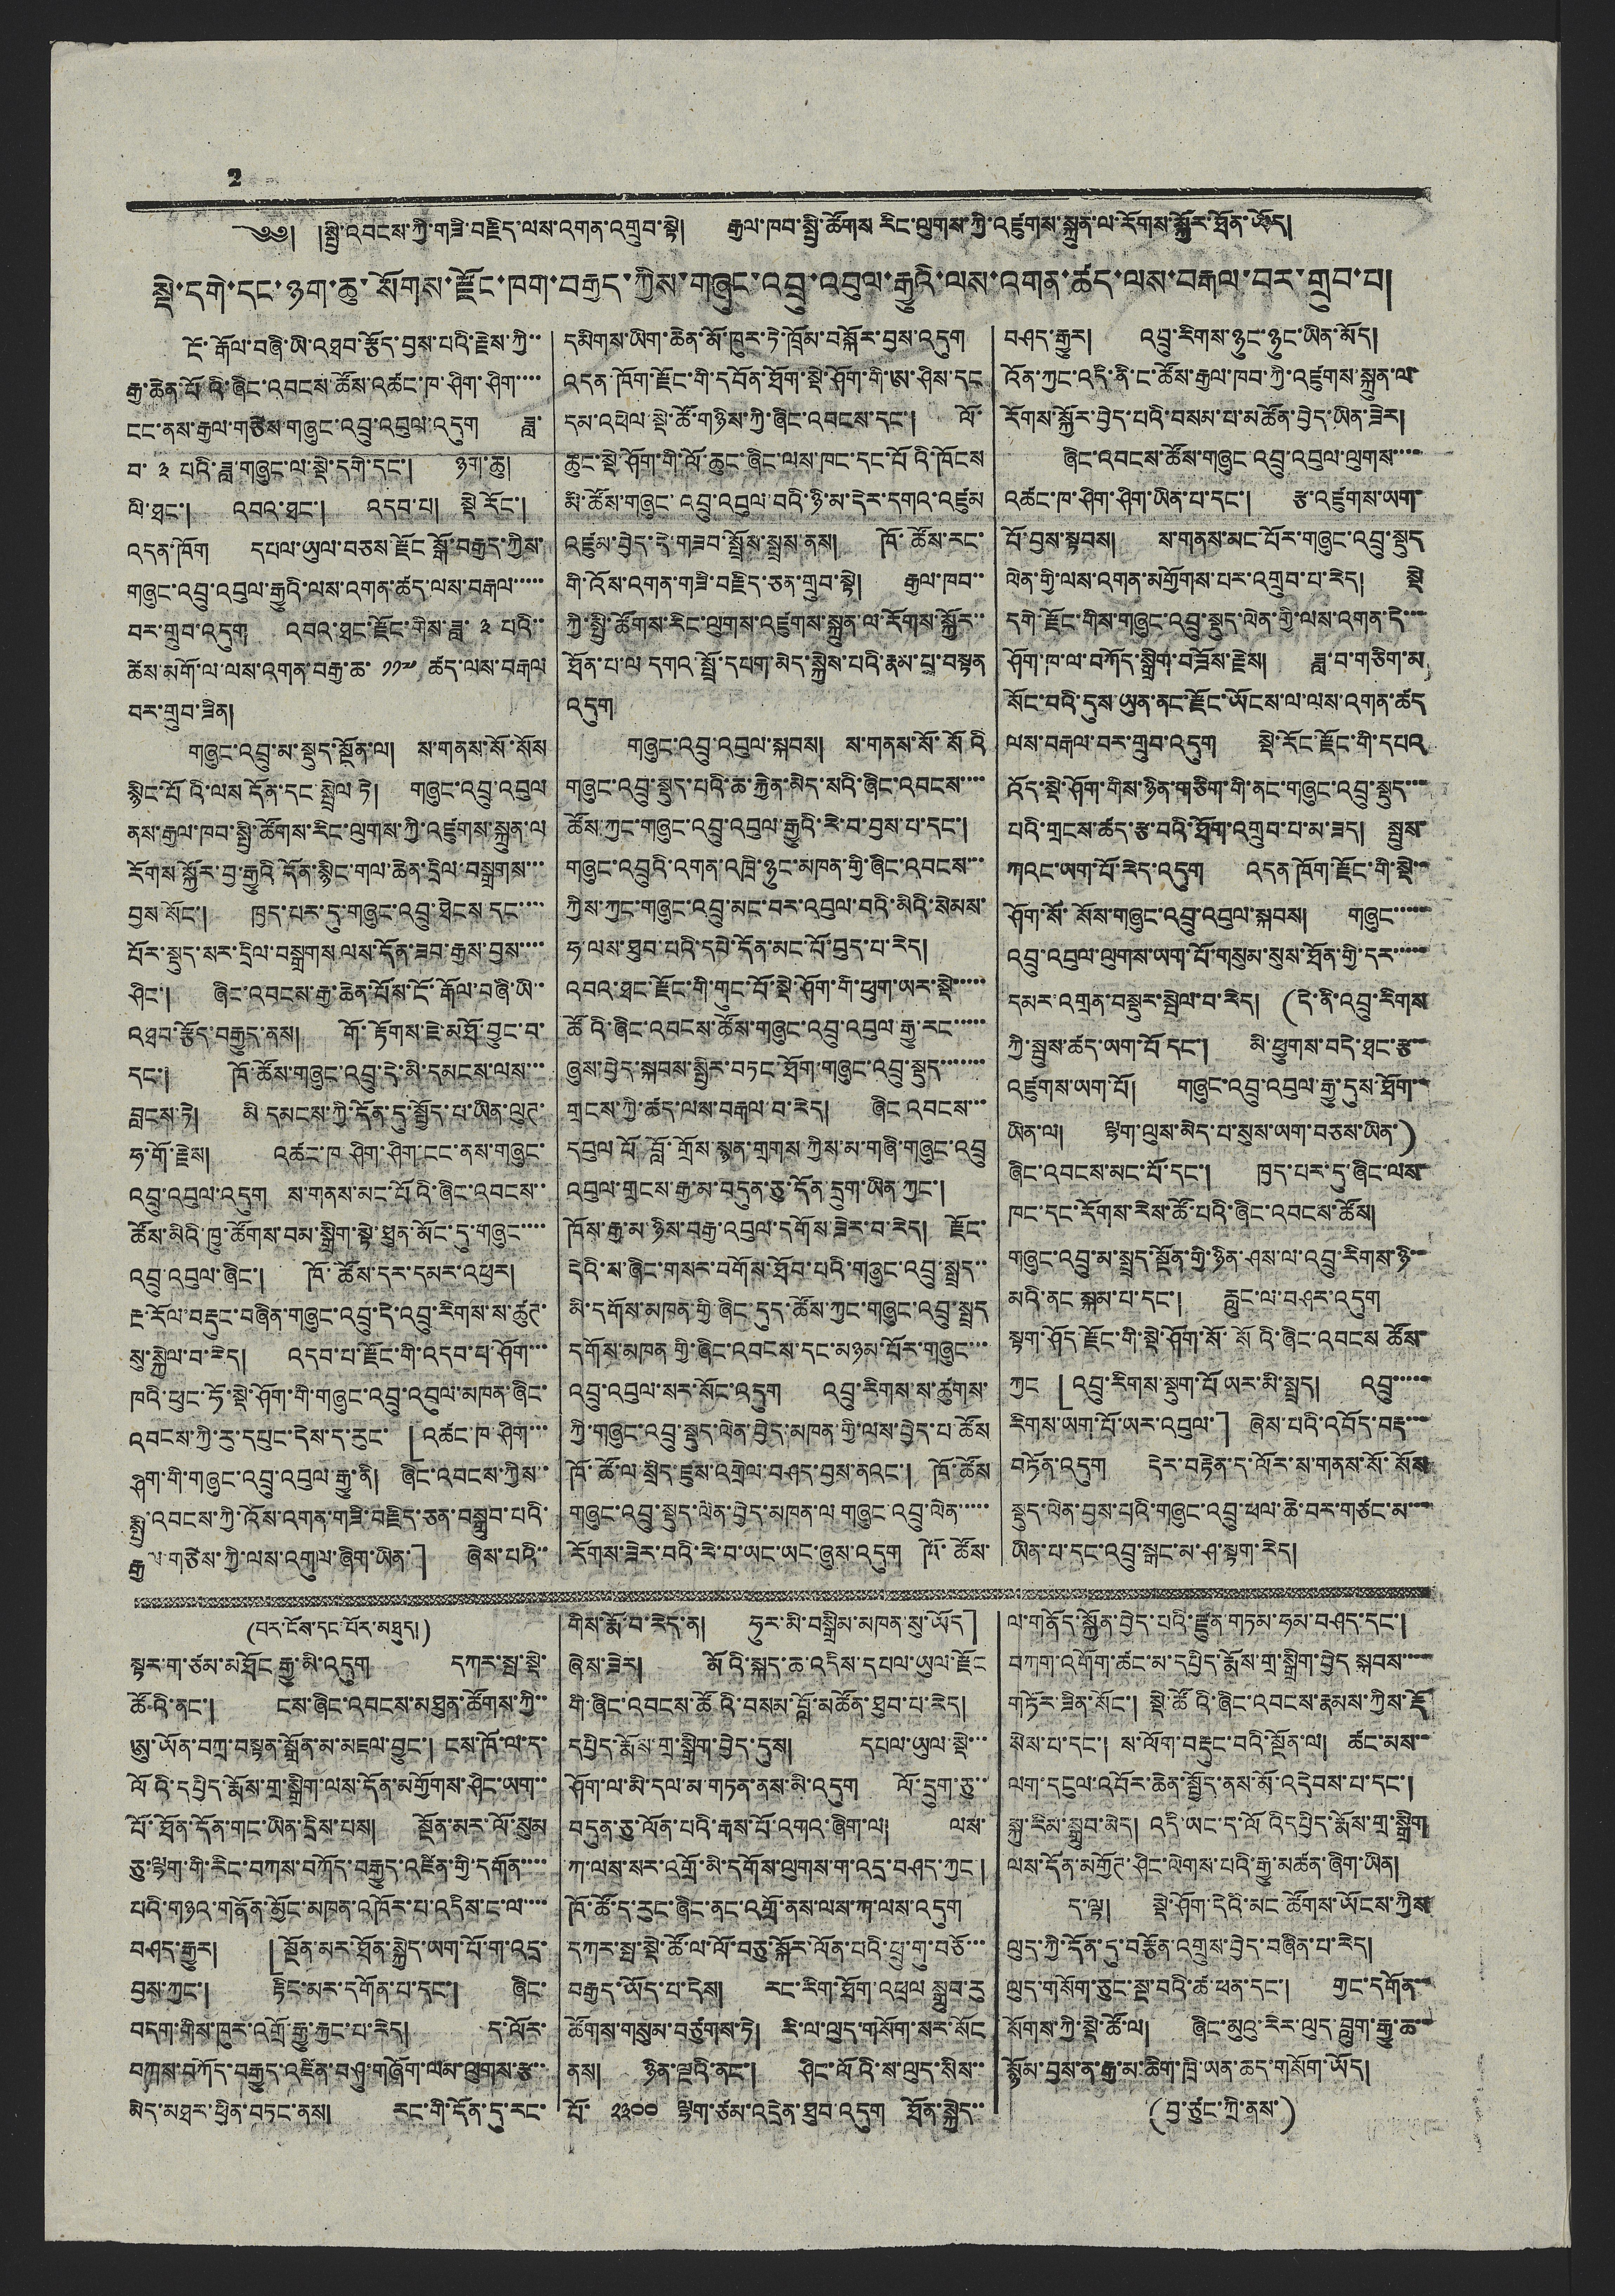2
༄༅། །སྤྱི་འབངས་ཀྱི་གཟི་བརྗིད་ལས་འགན་འགྲུབ་སྟེ། རྒྱལ་ཁབ་སྤྱི་ཚོགས་རིང་ལུགས་ཀྱི་འཛུགས་སྐྲུན་ལ་རོགས་སྐྱོར་ཐོན་ཡོད།
སྡེ་དགེ་དང་ཉག་ཆུ་སོགས་རྫོང་ཁག་བརྒྱད་ཀྱིས་གཞུང་འབྲུ་འབུལ་རྒྱུའི་ལས་འགན་ཚད་ལས་བརྒལ་བར་གྲུབ་པ།
ངོ་རྒོལ་བཞི་ཡི་འཐབ་རྩོད་བྱས་པའི་རྗེས་ཀྱི་་
རྒྱ་ཆེན་པོའི་ཞིང་འབངས་ཚོས་འཚང་ཁ་ཤིག་ཤིག་་་་
ངང་ནས་རྒྱལ་གཙེས་གཞུང་འབྲུ་འབུལ་འདུག ཟླ་
བ་ ༣ པའི་ཟླ་གཞུང་ལ་སྡེ་དགེ་དང་། ཉག་ཆུ།
ལི་ཐང་། འབའ་ཐང་། འདབ་པ། སྡེ རོང་།
འདུན་ཁོག དཔལ་ཡུལ་བཅས་རྫོང སྒོ་བརྒྱད་ཀྱིས་
གཞུང་འབྲུ་འབུལ་རྒྱུའི་ལས་འགན་ཚད་ལས་བརྒལ་་་་་
བར་གྲུབ་འདུག འབའ་ཐང་རྫོང་གིས་ཟླ་ ༣ པའི་་
ཚེས་མགོ་ལ་ལས་འགན་བརྒྱ་ཆ་ ༡༡༧ ཚད་ལས་བརྒལ
བར་གྲུབ་ཟིན།
གཞུང་འབྲུ་མ་སྡུད་སྔོན་ལ། ས་གནས་སོ་སོས
སྙིང་པོའི་ལས དོན་དང་སྦྲེལ་ཏེ། གཞུང་འབྲུ་འབུལ
ནས་རྒྱལ་ཁབ་སྤྱི་ཚོགས་རིང་ལུགས་ཀྱི་འཛུགས་སྐྲུན་ལ
རོགས་སྐྱོར་བྱ་རྒྱུའི་དོན་སྙིང་གལ་ཆེན་དྲིལ་བསྒྲགས་་་
བྱས་སོང་། ཁྱད་པར་དུ་གཞུང་འབྲུ་ཐེངས་དང་་་་
པོར་སྡུད་སར་དྲིལ་བསྒྲགས ལས་དོན་ཟབ་རྒྱས་བྱས་་་་
ཤིང་། ཞིང་འབངས་རྒྱ་ཆེན་པོས་ངོ་རྒོལ་བཞི་ཡི་་
འཐབ་རྩོད་བརྒྱུད་ནས། གོ་རྟོགས་ཇེ་མཐོ་བྱུང་བ་
དང་། ཁོ་ཚོས་གཞུང་འབྲུ་དེ་མི་དམངས་ལས་་་
བླངས་ཏེ། མི་དམངས་ཀྱི་དོན་དུ་སྤྱོད་པ་ཡིན་ལུཊ་
ཧ་གོ་རྗེས། འཚང་ཁ ཤིག་ཤིག་ངང་ནས་གཞུང་
འབྲུ་འབུལ་འདུག ས་གནས་མང་པོའི་ཞིང་འབངས་་
ཚོས་མིའི་ཁྱུ་ཚོགས་བམ་སྒྲིག་སྟེ་ཕྱུན་མོང་དུ་གཞུང་་་་
འབྲུ་འབུལ་ཞིང་། ཁོ་ཚོས་དར་དམར་འཕྱར།
རྔ་རོལ་བརྡུང་བཞིན་གཞུང་འབྲུ་དེ་འབྲུ་རིགས་ས་ཚུཊ་
སུ་སྐྱེལ་བ་རེད། འདབ་པ་རྫོང་གི་འདབ་བ་ཤོག་་་
ཁའི་ཕུང་ཧོ་སྡེ་ཤོག་གི་གཞུང་འབྲུ་འབུལ་མཁན་ཞིང་
འབངས་ཀྱི་རུ་དཔུང་དེས་ད་རུང་ 「འཚང་ཁ་ཤིག་་་
ཤག་གི་གཞུང་འབྲུ་འབུལ་རྒྱུ་ནི། ཞིང་འབངས་ཀྱིས་་
སྤྱི་འབངས་ཀྱི་འོས་འགན་གཟི་བརྗིད་ཅན་བསྒྲུབ་པའི་
རྒྱལ་གཅེས་ཀྱི་ལས་འགུལ་ཞིག་ཡིན་」 ཞེས་པའི་་
དམིགས་ཡིག་ཆེན་མོ་ཁྱུར་ཏེ་ཁྲོམ་བསྐོར་བྱས་འདུག
འདུན་ཁོག་རྫོང་གི་དབོན་ཐོག་སྡེ་ཤོག་གི་ཨ་ཤིས་དང
དམ་འཕེལ་སྡེ་ཚོ་གཉིས་ཀྱི་ཞིང་འབངས་དང་། ལོ་
ཆུང་སྡེ་ཤོག་གི་ལོ་ཆུང་ཞིང་ལས་ཁང་དང་པོའི་ཁོངས
མི་ཚོས་གཞུང་འབྲུ་འབུལ་བའི་ཉི་མ་དེར་དགའ་འཛུམ
འཛུམ་བྱེད་དེ་གཟབ་སྤྲོས་སྤྲས་ནས། ཁོ་ཚོས་རང་
གི་འོས་འགན་གཟི་བརྗིད་ཅན་གྲུབ་སྟེ། རྒྱལ་ཁབ་་
ཀྱི་སྤྱི་ཚོགས་རིང་ལུགས་འཛུགས་སྐྲུན་ལ་རོགས་སྐྱོར་་
ཐོན་པ་ལེ་དགའ་སྤྲོ་དཔག་མེད་སྐྱེས་པའི་རྣམ་པྲ་བསྟན
འདུག
གཞུང་འབྲུ་འབུལ་སྐབས། ས་གནས་སོ་སོའི
གཞུང་འབྲུ་སྡུད་པའི་ཆ་རྐྱེན་མེད་སའི་ཞིང་འབངས་་་་
ཚོས་ཀྱང་གཞུང་འབྲུ་འབུལ་རྒྱུའི་རེ་བ་བྱས་པ་དང་།
གཞུང་འབྲུའི་འགན་འཁྲི་ཉུང་མཁན་གྱི་ཞིང་འབངས་་་
ཀྱིས་ཀྱང་གཞུང་འབྲུ་མང་བར་འབུལ་བའི་མིའི་སེམས་
ཧ་ལས་ཐུབ་པའི་དཔེ་དོན་མང་པོ་བུད་པ་རེད།
འབའ་ཐང་རྫོང་གི་གུང་པོ་སྡེ་ཤོག་གི་ཕུག་ཡར་སྡེ་་་་་
ཚོའི་ཞིང་འབངས་ཚོས་གཞུང་འབྲུ་འབུལ་རྒྱུ་རང་་་་་
ཞུས་བྱེད་སྐབས་སྤྱིར་བཏང་ཐོག་གཞུང་འབྲུ་སྡུད་་་་་་་
གྲངས་ཀྱི་ཚད་ལས་བརྒལ་བ་རེད། ཞིང་འབངས་་་
དབུལ པོ་བློ་གྲོས་སྙན་གྲགས་ཀྱིས་མ་གཞི་གཞུང་འབྲུ
འབུལ་གྲངས་རྒྱ་མ་བདུན་ཅུ་དོན་དྲུག་ཡིན ཀྱང་།
ཁོས་རྒྱ་མ་ཉིས་བརྒྱ་འབུལ་དགོས་ཟེར་བ་རེད། རྫོང་
དེའི་ས་ཞིང་གསར་བགོས་ཐོབ་པའི་གཞུང་འབྲུ་སྤྲད་་
མི་དགོས་མཁན་གྱི་ཞིང་དུད་ཚོས་ཀྱང་གཞུང་འབྲུ་སྤྲད
དགོས་མཁན་གྱི་ཞིང་འབངས་དང་མཉམ་པོར་གཞུང་་་
འབྲུ་འབུལ་སར་སོང་འདུག འབྲུ་རིགས་ས་ཚུགས་
ཀྱི་གཞུང་འབྲུ་སྡུད་ལེན་བྱེད་མཁན་གྱི་ལས་བྱེད་པ་ཚོས
ཁོ་ཚོ་ལ་སྲིད་ཇུས་འགྲེལ་བཤད་བྱས་ནའང་། ཁོ་ཚོས
གཞུང་འབྲུ་སྡུད་ལེན་བྱེད་མཁན་ལ གཞུང་འབྲུ་ལེན་་་་་
རོགས་ཟེར་བའི་ཟེ་བ་ཡང་ཡང་ཞུས་འདུག ཁོ་ཚོས་
བཤད་རྒྱུར། འབྲུ་རིགས་ཉུང་ཉུང་ཡིན་མོད།
འོན་ཀྱང་འདི་ནི་ང་ཚོས་རྒྱལ་ཁབ་ཀྱི་འཛུགས་སྐྲུན་ལ་
རོགས་སྐྱོར་བྱེད་པའི་བསམ་པ་མཚོན་བྱེད་ཡིན་ཟེར།
ཞིང་འབངས་ཚོས་གཞུང་འབྲུ་འབུལ་ལུགས་་་་
འཚང་ཁ་ཤིག་ཤིག་ཡིན་པ་དང་། རྩ་འཛུགས་ཡག་
པོ་བྱས་སྟབས། ས་གནས་མང་པོར་གཞུང་འབྲུ་སྡུད
ལེན་གྱི་ལས་འགན་མགྱོགས་པར་འགྲུབ་པ་རེད། སྡེ་
དགེ་རྫོང་གིས་གཞུང་འབྲུ་སྤུད་ལེན་གྱི་ལས་འགན་དེ་་་
ཤོག་ཁ་ལ་བཀོད་སྒྲིག་བཟོས་རྗེས། ཟླ་བ་གཅིག་མ
སོང་བའི་དུས་ཡུན་ནང་རྫོང་ཡོངས་ལ་ལས་འགན་ཚད
ལས་བརྒལ་བར་གྲུབ་འདུག སྡེ་རོང་རྫོང་གི་དཔའ
འོད་སྡེ་ཤོག་གིས་ཉིན་གཅིག་གི་ནང་གཞུང་འབྲུ་སྤུད་་་
པའི་གྲངས་ཚད་རྩ་བའི་ཐོག་འགྲུབ་པ་མ་ཟད། སྤུས་
ཀའང་ཡག་པོ་རེད་འདུག འདུན་ཁོག་རྫོང་གི་སྡེ་་
ཤོག་སོ་སོས་གཞུང་འབྲུ་འབུལ་སྐབས། གཞུང་་་་་
འབྲུ་འབུལ་ལུགས་ཡག་པོ་གསུམ་སུས་ཐོན་གྱི་དར་་་་་
དམར་འགྲུན་བསྡུར་སྤེལ་བ་རེད། (དེ་ནི་འབྲུ་རིགས་
ཀྱི་སྤུས་ཚད་ཡག་པོ་དང་། མི་ཕྱུགས་བདེ་ཐང་རྩ་་
འཛུགས་ཡག་པོ། གཞུང་འབྲུ་འབུལ་རྒྱུ་དུས་ཐོག་་
ཡིན་ལ། ལྷག་ལུས་མེད་པ་སུས་ཡག་བཅས་ཡིན་)
ཞིང་འབངས་མང་པོ་དང་། ཁྱད་པར་དུ་ཞིང་ལས་
ཁང་དང་རོགས་རེས་ཚོ་པའི་ཞིང་འབངས་ཚོས།
གཞུང་འབྲུ་མ་སྤྲད་སྔོན་གྱི་ཉིན་ཤས་ལ་འབྲུ་རིགསཉི་་
མའི་ནང་སྐམ་པ་དང་། རླུང་ལ་བཤར་འདུག
སྟག་ཤོད་རྫོང་གི་སྡེ་ཤོག་སོ་སོའི་ཞིང་འབངས ཚོས་
ཀྱང 「འབྲུ་རིགས་སྡུག་པོ ཡར་མི་སྤྲད། འབྲུ་་་་་
རིགས་ཡག་པོ་ཡར་འབུལ་」 ཞེས་པའི་འབོད་བརྡ་་་
བཏོན་འདུག དེར་བརྟེན་ད་ལོར་ས་གནས་སོ་སོས
སྡུད་ལེན་བྱས་པའི་གཞུང་འབྲུ་ཕལ་ཆེ་བར་གཙང་མ་་་་
ཡིན་པ་དང་འབྲུ་སྒང་མ་ཤ་སྟག་རེད།
(པར་ངོས་དང་པོར་མཐུད།)
སྟར་ག་ཙམ་མཐོང རྒྱུ་མི་འདུག དཀར་སྤ་སྡེ་
ཚོའི་ནང་། ངས་ཞིང་འབངས་མཐུན་ཚོགས་ཀྱི་་
ཨུ་ཡོན་བཀྲ་བསྟན་སྒྲོན་མ་མཇལ་བྱུང་། ངས་ཁོ་ལ་ད་
ལོའི་དཔྱིད་རྨོས་གྲ་སྒྲིག་ལས་དོན་མགྱོགས་ཤིང་ཡག་
པོ་ཐོན་དོན་གང་ཡིན་དྲིས་པས། སྔོན་མར་ལོ་སུམ
ཅུ་ལྷག་གི་རིང་བཀས་བཀོད་བརྒྱུད་འཛིན་གྱི་དགན་་་་
པའི་གཉའ་གནོན་མྱོང་མཁན་འཁོར་པ་འདིས་ང་ལ་་་་
བཤད་རྒྱུར། 「སྔོན་མར་ཐོན་སྐྱེད་ཡག་པོ་ག་འདྲ་
བྱས་ཀྱང་། རྟིང་མར་དགོན་པ་དང་། ཞིང་
བདག་གིས་ཁུར་འགྲོ་རྒྱུ་རྐྱང་པ་རེད། ད་ལོར་
བཀས་བཀོད་བརྒྱུད་འཛིན་བཤུ་གཞོག་ལམ་ལུགས་རྩ་་
མེད་མཐར་ཕྱིན་བཏང་ནས། རང་གི་དོན་དུ་རང་
གིས་རྨོ་བ་རེད་ན། ཧུར་མི་བསྒྲིམ་མཁན་སུ་ཡོད」
ཞེས་ཟེར། མོའི་སྐད་ཆ་འདིས་དཔལ་ཡུལ་རྫོང
གི་ཞིང་འབངས་ཚོའི་བསམ་བློ་མཚོན་ཐུབ་པ་རེད།
དཔྱིད་རྨོས་གྲ་སྒྲིག་བྱེད་དུས། དཔལ་ཡུལ་སྡེ་་་
ཤོག་ལ་མི་དལ་མ་གཏན་ནས་མི་འདུག ལོ་དྲུག་ཅུ་
བདུན་ཅུ་ལོན་པའི་རྒས་པོ་འགའ་ཞིག་ལ། ལས་
ཀ་ལས་སར་འགྲོ་མི་དགོས་ལུགས་ག་འདྲ་བཤད་ཀྱང་།
ཁོ་ཚོ་ད་རུང་ཞིང་ནང་འགྲོ་ནས་ལས་ཀ་ལས་འདུག
དཀར་སྤ་སྡེ་ཚོ་ལ་ལོ་བཅུ་སྐོར་ལོན་པའི་ཕྲུ་གུ་བཅོ་་་
བརྒྱད་ཡོད་པ་དེས། རང་རིག་ཐོག་འཕྲལ སྒྲུབ་རུ
ཚོགས་གསུམ་བཙུགས་ཏེ། རི་ལ་ལུད་གསོག་སར་སོང
ནས། ཉིན་ལྔའི་ནང་། ཤིང་ལོའི་ས་ལུད་སིས་་
པོ་ ༢༣༠༠ ལྷག་ཙམ་འདྲེན་ཐུབ་འདུག ཐོན་སྐྱེད་་
གོད་སྐྱོན་བྱེད་འི་རེ་དན་ས་བསོད་དང་།
བཀག་འགོག་ཚང་མ་དཔྱིད་རྨོས་གྲྭ་སྒྲིག་བྱེད སྐབས་་་་
གཏོར་ཟིན་སོང་། སྡེ་ཚོའི་ཞིང་འབངས་རྣམས་ཀྱིས་རྡོ
སེས་པ་དང་། ས་ལོག་བརྡུང་བའི་སྔོན་ལ། ཚང་མས་་
ལག་དངུལ་འབོར་ཆེན་སྤྱོད་ནས་མོ་འདེབས་པ་དང་།
སྐུ་རིམ་སྒྲུབ་མེད། འདི་ཡང་ད་ལོའིདཔྱིད་རྨོས་གྲ་སྒྲིག
ལས་དོན་མགྱོཊ་ཤིང་ལེགས་པའི་རྒྱུ་མཚན་ཞིག་ཡིན།
ད་ལྟ། སྡེ་ཤོག་དེའི་མང་ཚོགས་ཡོངས་ཀྱིས
ལུད་ཀྱི་དོན་དུ་བརྩོན་འགྲུས་བྱེད་བཞིན་པ་རེད།
ལུད་གསོག་ཅུང་སྔ་བའི་ཆ་ཕན་དང་། གྱང་དགོན་་
སོགས་ཀྱི་སྡེ་ཚོ་ལ། ཞིང་མུའུ་རེར་ལུད་བླུག་རྒྱུ་ཆ་་
སྙོམ་བྱས་ན་རྒྱ་མ་ཆིག་ཁྲི་ཡན་ཆད་གསོག་ཡོད།
(བྱ་ཙུང་ཀི་ནས་)
